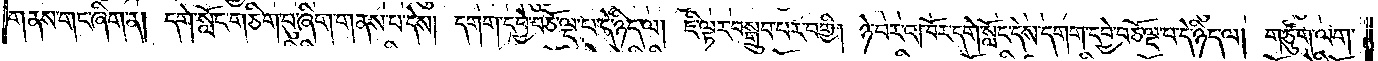གནས་གང་ཞིག་ན། དགེ་སློང་གཅིག་བུ་ཞིག་གནས་པ་དེས། དགག་དབྱེ་བཅོ་ལྔ་པ་དེ་ཉིད་ལ། ཇི་ལྟར་བསྒྲུབ་པར་བགྱི། ཉེ་བར་འཁོར་དགེ་སློང་དེས་དགག་དབྱེ་བཅོ་ལྔ་པ་དེ་ཉིད་ལ། གཙུག་ལག་
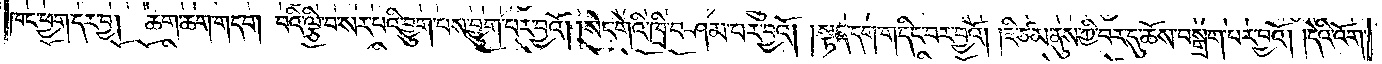ཁང་ཕྱག་དར་བྱ། ཆག་ཆག་གདབ། བའི་ལྕི་བ་སར་པའི་བྱུག་པས་བྱུག་པར་བྱའོ། །སེང་གེའི་ཁྲི་བཤམ་པར་བྱའོ། །སྟན་དག་གདིང་བར་བྱའོ། །ཇི་ཙམ་ནུས་ཀྱི་བར་དུ་ཆོས་བསྒྲག་པར་བྱའོ། །དེའི་འོག་
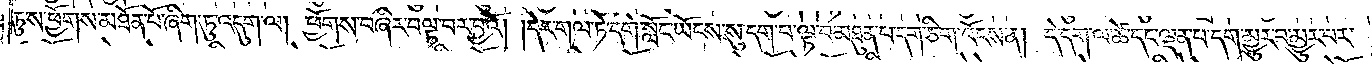ཏུ་ས་ཕྱོགས་མཐོན་པོ་ཞིག་ཏུ་འདུག་ལ། ཕྱོགས་བཞིར་བལྟ་བར་བྱའོ། །དེར་གལ་ཏེ་དགེ་སློང་ཡོངས་སུ་དག་པ་ལྟ་བ་མཐུན་པ་དག་ཅིག་འོངས་ན། དེ་དག་ལ་ཚེ་དང་ལྡན་པ་དག་མྱུར་བ་མྱུར་པར་
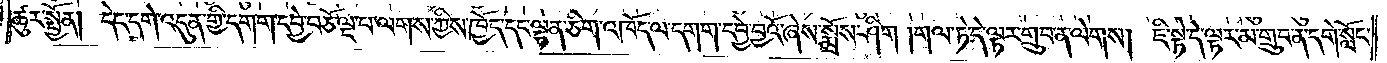ཚུར་སྤྱོན། དེང་དགེ་འདུན་གྱི་དགག་དབྱེ་བཅོ་ལྔ་པ་ལགས་ཀྱིས་ཁྱོད་དང་ལྷན་ཅིག་འཁོད་ལ་དགག་དབྱེ་བྱའོ་ཞེས་སྨྲོས་ཤིག །གལ་ཏེ་དེ་ལྟར་གྲུབ་ན་ལེགས། ཇི་སྟེ་དེ་ལྟར་མ་གྲུབ་ན་དགེ་སློང་
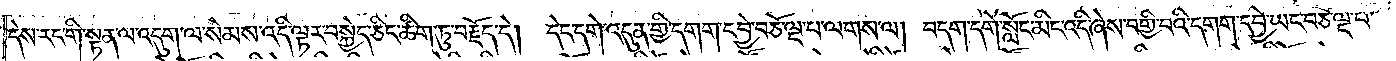དེས་རང་གི་སྟན་ལ་འདུག་ལ་སེམས་འདི་ལྟར་བསྐྱེད་ཅིང་ཚིག་ཏུ་བརྗོད་དེ། དེང་དགེ་འདུན་གྱི་དགག་དབྱེ་བཅོ་ལྔ་པ་ལགས་ལ། བདག་དགེ་སློང་མིང་འདི་ཞེས་བགྱི་བའི་དགག་དབྱེ་ཡང་བཅོ་ལྔ་པ་
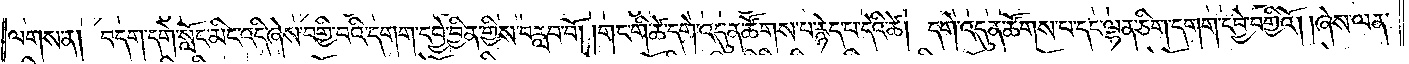ལགས་ན། བདག་དགེ་སློང་མིང་འདི་ཞེས་བགྱི་བའི་དགག་དབྱེ་བྱིན་གྱིས་བརླབ་བོ། །གང་གི་ཚེ་དགེ་འདུན་ཚོགས་པ་རྙེད་པ་དེའི་ཚེ། དགེ་འདུན་ཚོགས་པ་དང་ལྷན་ཅིག་དགག་དབྱེ་བགྱིའོ། །ཞེས་ལན་
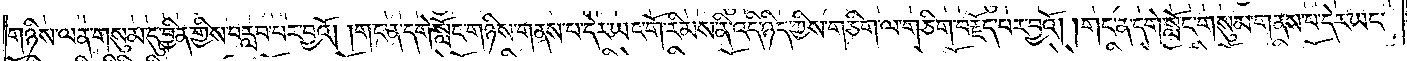གཉིས་ལན་གསུམ་དུ་བྱིན་གྱིས་བརླབ་པར་བྱའོ། །གང་ན་དགེ་སློང་གཉིས་གནས་པ་དེར་ཡང་གོ་རིམས་ནི་འདི་ཉིད་ཀྱིས་གཅིག་ལ་གཅིག་བརྗོད་པར་བྱའོ། །གང་ན་དགེ་སློང་གསུམ་གནས་པ་དེར་ཡང་
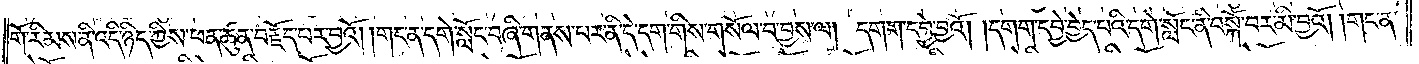གོ་རིམས་ནི་འདི་ཉིད་ཀྱིས་ཕན་ཚུན་བརྗོད་པར་བྱའོ། །གང་ན་དགེ་སློང་བཞི་གནས་པར་ནི་དེ་དག་གིས་གསོལ་བ་བྱས་ལ། དགག་དབྱེ་བྱའོ། །དགག་དབྱེ་བྱེད་པའི་དགེ་སློང་ནི་བསྐོ་བར་མི་བྱའོ། །གང་ན་
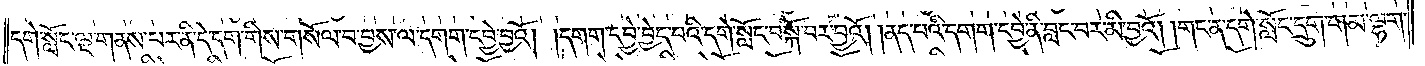དགེ་སློང་ལྔ་གནས་པར་ནི་དེ་དག་གིས་གསོལ་བ་བྱས་ལ་དགག་དབྱེ་བྱའོ། །དགག་དབྱེ་བྱེད་པའི་དགེ་སློང་བསྐོ་བར་བྱའོ། །ནད་པའི་དགག་དབྱེ་ནི་བླང་བར་མི་བྱའོ། །གང་ན་དགེ་སློང་དྲུག་གམ་ལྷག་
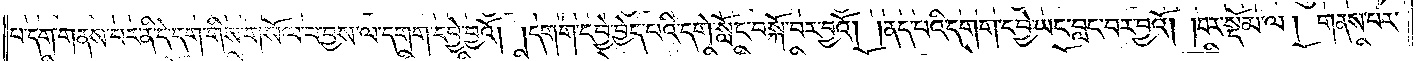པ་དག་གནས་པར་ནི་དེ་དག་གིས་གསོལ་བ་བྱས་ལ་དགག་དབྱེ་བྱའོ། །དགག་དབྱེ་བྱེད་པའི་དགེ་སློང་བསྐོ་བར་བྱའོ། །ནད་པའི་དགག་དབྱེ་ཡང་བླང་བར་བྱའོ།    །བར་སྡོམ་ལ། གནས་པར་
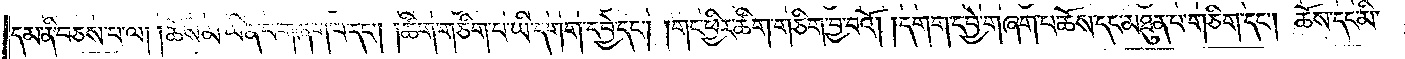དམན་བཅས་པ་ལ། །ཆོས་མ་ཡིན་པ་གཞག་པ་དང༌། །ཚིག་གཅིག་པ་ཡི་དགག་དབྱེ་དང༌། །གང་ཕྱིར་ཚིག་གཅིག་བྱ་བའོ། །དགག་དབྱེ་གཞག་པ་ཆོས་དང་མཐུན་པ་གཅིག་དང༌། ཆོས་དང་མི་
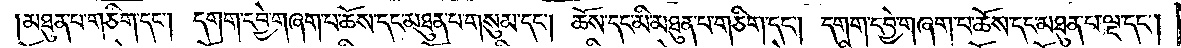མཐུན་པ་གཅིག་དང༌། དགག་དབྱེ་གཞག་པ་ཆོས་དང་མཐུན་པ་གསུམ་དང༌། ཆོས་དང་མི་མཐུན་པ་གཅིག་དང༌། དགག་དབྱེ་གཞག་པ་ཆོས་དང་མཐུན་པ་ལྔ་དང༌།
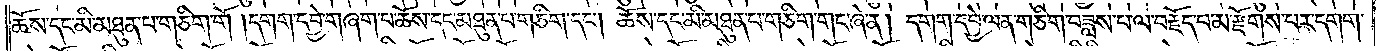ཆོས་དང་མི་མཐུན་པ་གཅིག་གོ །དགག་དབྱེ་གཞག་པ་ཆོས་དང་མཐུན་པ་གཅིག་དང༌། ཆོས་དང་མི་མཐུན་པ་གཅིག་གང་ཞེ་ན། དགག་དབྱེ་ལན་གཅིག་བཟླས་པ་ལ་བརྗོད་པ་མ་རྫོགས་པར་དགག་
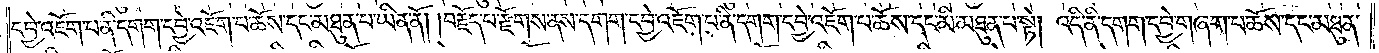དབྱེ་འཇོག་པ་ནི་དགག་དབྱེ་འཇོག་པ་ཆོས་དང་མཐུན་པ་ཡིན་ནོ། །བརྗོད་པ་རྫོགས་ནས་དགག་དབྱེ་འཇོག་པ་ནི་དགག་དབྱེ་འཇོག་པ་ཆོས་དང་མི་མཐུན་པ་སྟེ། འདི་ནི་དགག་དབྱེ་གཞག་པ་ཆོས་དང་མཐུན་
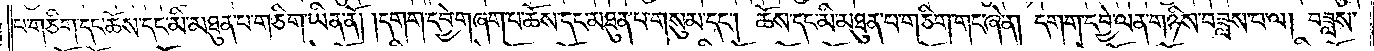པ་གཅིག་དང་ཆོས་དང་མི་མཐུན་པ་གཅིག་ཡིན་ནོ། །དགག་དབྱེ་གཞག་པ་ཆོས་དང་མཐུན་པ་གསུམ་དང༌། ཆོས་དང་མི་མཐུན་པ་གཅིག་གང་ཞེ་ན། དགག་དབྱེ་ལན་གཉིས་བཟླས་པ་ལ། བཟླས་
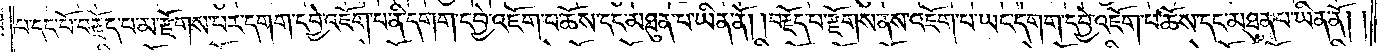པ་དང་པོ་བརྗོད་པ་མ་རྫོགས་པར་དགག་དབྱེ་འཇོག་པ་ནི་དགག་དབྱེ་འཇོག་པ་ཆོས་དང་མཐུན་པ་ཡིན་ནོ། །བརྗོད་པ་རྫོགས་ནས་འཇོག་པ་ཡང་དགག་དབྱེ་འཇོག་པ་ཆོས་དང་མཐུན་པ་ཡིན་ནོ། །
